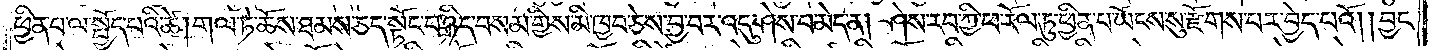ཕྱིན་པ་ལ་སྤྱོད་པའི་ཚེ། གལ་ཏེ་ཆོས་ཐམས་ཅད་སྟོང་པ་ཉིད་བསམ་གྱིས་མི་ཁྱབ་ཅེས་བྱ་བར་འདུ་ཤེས་པ་མེད་ན། ཤེས་རབ་ཀྱི་ཕ་རོལ་ཏུ་ཕྱིན་པ་ཡོངས་སུ་རྫོགས་པར་བྱེད་པའོ། །བྱང་
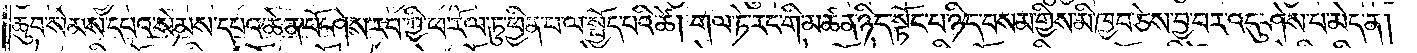ཆུབ་སེམས་དཔའ་སེམས་དཔའ་ཆེན་པོ་ཤེས་རབ་ཀྱི་ཕ་རོལ་ཏུ་ཕྱིན་པ་ལ་སྤྱོད་པའི་ཚེ། གལ་ཏེ་རང་གི་མཚན་ཉིད་སྟོང་པ་ཉིད་བསམ་གྱིས་མི་ཁྱབ་ཅེས་བྱ་བར་འདུ་ཤེས་པ་མེད་ན།
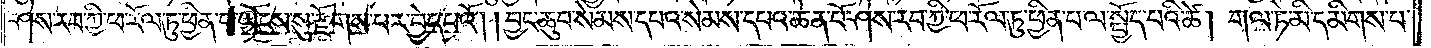ཤེས་རབ་ཀྱི་ཕ་རོལ་ཏུ་ཕྱིན་པ་ཡོངས་སུ་རྫོགས་པར་བྱེད་པའོ། །བྱང་ཆུབ་སེམས་དཔའ་སེམས་དཔའ་ཆེན་པོ་ཤེས་རབ་ཀྱི་ཕ་རོལ་ཏུ་ཕྱིན་པ་ལ་སྤྱོད་པའི་ཚེ། གལ་ཏེ་མི་དམིགས་པ་
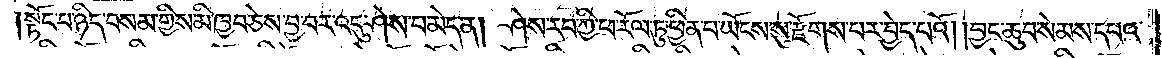སྟོང་པ་ཉིད་བསམ་གྱིས་མི་ཁྱབ་ཅེས་བྱ་བར་འདུ་ཤེས་པ་མེད་ན། ཤེས་རབ་ཀྱི་ཕ་རོལ་ཏུ་ཕྱིན་པ་ཡོངས་སུ་རྫོགས་པར་བྱེད་པའོ། །བྱང་ཆུབ་སེམས་དཔའ་
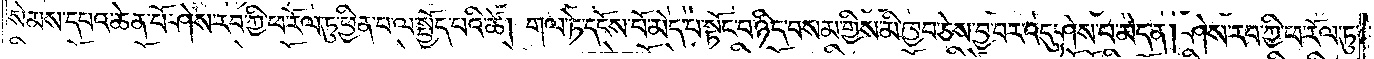སེམས་དཔའ་ཆེན་པོ་ཤེས་རབ་ཀྱི་ཕ་རོལ་ཏུ་ཕྱིན་པ་ལ་སྤྱོད་པའི་ཚེ། གལ་ཏེ་དངོས་པོ་མེད་པ་སྟོང་པ་ཉིད་བསམ་གྱིས་མི་ཁྱབ་ཅེས་བྱ་བར་འདུ་ཤེས་པ་མེད་ན། ཤེས་རབ་ཀྱི་ཕ་རོལ་ཏུ་
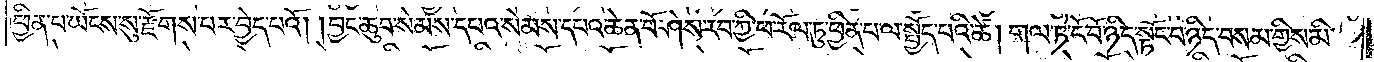ཕྱིན་པ་ཡོངས་སུ་རྫོགས་པར་བྱེད་པའོ། །བྱང་ཆུབ་སེམས་དཔའ་སེམས་དཔའ་ཆེན་པོ་ཤེས་རབ་ཀྱི་ཕ་རོལ་ཏུ་ཕྱིན་པ་ལ་སྤྱོད་པའི་ཚེ། གལ་ཏེ་ངོ་བོ་ཉིད་སྟོང་པ་ཉིད་བསམ་གྱིས་མི་
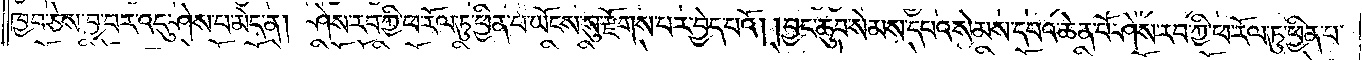ཁྱབ་ཅེས་བྱ་བར་འདུ་ཤེས་པ་མེད་ན། ཤེས་རབ་ཀྱི་ཕ་རོལ་ཏུ་ཕྱིན་པ་ཡོངས་སུ་རྫོགས་པར་བྱེད་པའོ། །བྱང་ཆུབ་སེམས་དཔའ་སེམས་དཔའ་ཆེན་པོ་ཤེས་རབ་ཀྱི་ཕ་རོལ་ཏུ་ཕྱིན་པ་
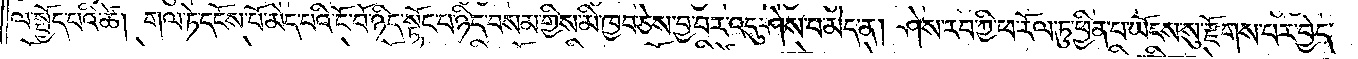ལ་སྤྱོད་པའི་ཚེ། གལ་ཏེ་དངོས་པོ་མེད་པའི་ངོ་བོ་ཉིད་སྟོང་པ་ཉིད་བསམ་གྱིས་མི་ཁྱབ་ཅེས་བྱ་བར་འདུ་ཤེས་པ་མེད་ན། ཤེས་རབ་ཀྱི་ཕ་རོལ་ཏུ་ཕྱིན་པ་ཡོངས་སུ་རྫོགས་པར་བྱེད་
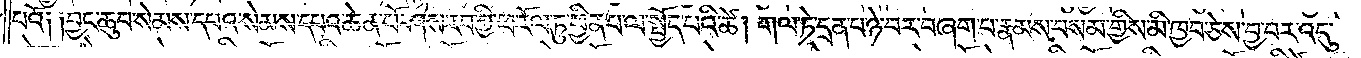པའོ༑ ༑བྱང་ཆུབ་སེམས་དཔའ་སེམས་དཔའ་ཆེན་པོ་ཤེས་རབ་ཀྱི་ཕ་རོལ་ཏུ་ཕྱིན་པ་ལ་སྤྱོད་པའི་ཚེ། གལ་ཏེ་དྲན་པ་ཉེ་བར་བཞག་པ་རྣམས་བསམ་གྱིས་མི་ཁྱབ་ཅེས་བྱ་བར་འདུ་
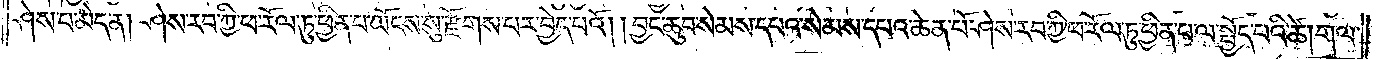ཤེས་པ་མེད་ན། ཤེས་རབ་ཀྱི་ཕ་རོལ་ཏུ་ཕྱིན་པ་ཡོངས་སུ་རྫོགས་པར་བྱེད་པའོ། །བྱང་ཆུབ་སེམས་དཔའ་སེམས་དཔའ་ཆེན་པོ་ཤེས་རབ་ཀྱི་ཕ་རོལ་ཏུ་ཕྱིན་པ་ལ་སྤྱོད་པའི་ཚེ། གལ་
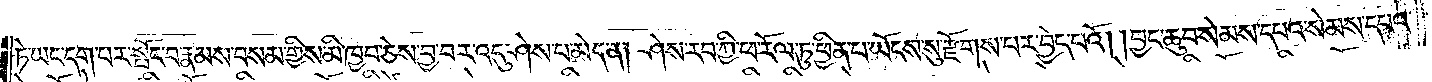ཏེ་ཡང་དག་པར་སྤོང་བ་རྣམས་བསམ་གྱིས་མི་ཁྱབ་ཅེས་བྱ་བར་འདུ་ཤེས་པ་མེད་ན། ཤེས་རབ་ཀྱི་ཕ་རོལ་ཏུ་ཕྱིན་པ་ཡོངས་སུ་རྫོགས་པར་བྱེད་པའོ། །བྱང་ཆུབ་སེམས་དཔའ་སེམས་དཔའ་
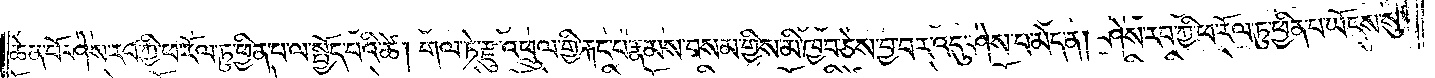ཆེན་པོ་ཤེས་རབ་ཀྱི་ཕ་རོལ་ཏུ་ཕྱིན་པ་ལ་སྤྱོད་པའི་ཚེ། གལ་ཏེ་རྫུ་འཕྲུལ་གྱི་རྐང་པ་རྣམས་བསམ་གྱིས་མི་ཁྱབ་ཅེས་བྱ་བར་འདུ་ཤེས་པ་མེད་ན། ཤེས་རབ་ཀྱི་ཕ་རོལ་ཏུ་ཕྱིན་པ་ཡོངས་སུ་
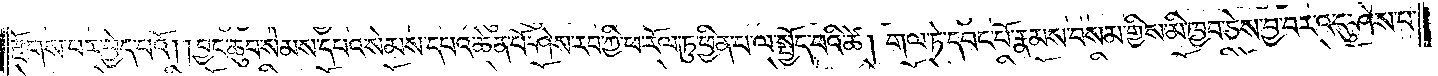རྫོགས་པར་བྱེད་པའོ། །བྱང་ཆུབ་སེམས་དཔའ་སེམས་དཔའ་ཆེན་པོ་ཤེས་རབ་ཀྱི་ཕ་རོལ་ཏུ་ཕྱིན་པ་ལ་སྤྱོད་པའི་ཚེ། གལ་ཏེ་དབང་པོ་རྣམས་བསམ་གྱིས་མི་ཁྱབ་ཅེས་བྱ་བར་འདུ་ཤེས་པ་
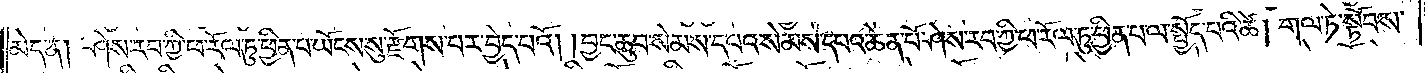མེད་ན། ཤེས་རབ་ཀྱི་ཕ་རོལ་ཏུ་ཕྱིན་པ་ཡོངས་སུ་རྫོགས་པར་བྱེད་པའོ། །བྱང་ཆུབ་སེམས་དཔའ་སེམས་དཔའ་ཆེན་པོ་ཤེས་རབ་ཀྱི་ཕ་རོལ་ཏུ་ཕྱིན་པ་ལ་སྤྱོད་པའི་ཚེ། གལ་ཏེ་སྟོབས་
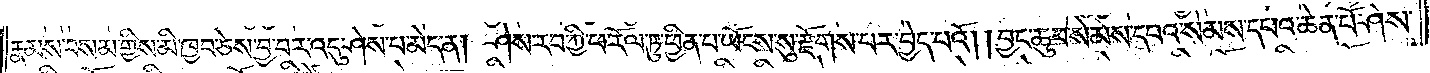རྣམས་བསམ་གྱིས་མི་ཁྱབ་ཅེས་བྱ་བར་འདུ་ཤེས་པ་མེད་ན། ཤེས་རབ་ཀྱི་ཕ་རོལ་ཏུ་ཕྱིན་པ་ཡོངས་སུ་རྫོགས་པར་བྱེད་པའོ། །བྱང་ཆུབ་སེམས་དཔའ་སེམས་དཔའ་ཆེན་པོ་ཤེས་
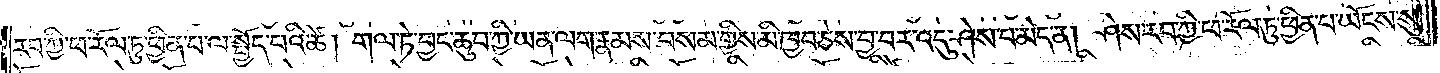རབ་ཀྱི་ཕ་རོལ་ཏུ་ཕྱིན་པ་ལ་སྤྱོད་པའི་ཚེ། གལ་ཏེ་བྱང་ཆུབ་ཀྱི་ཡན་ལག་རྣམས་བསམ་གྱིས་མི་ཁྱབ་ཅེས་བྱ་བར་འདུ་ཤེས་པ་མེད་ན། ཤེས་རབ་ཀྱི་ཕ་རོལ་ཏུ་ཕྱིན་པ་ཡོངས་སུ་
